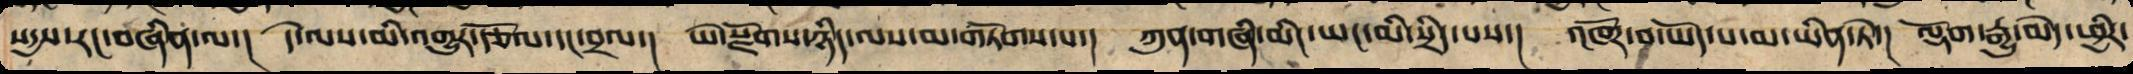སདྱས་རང་བཞིན་ལ་། དེ་ལས་མི་འགྱུར་རྩོལ་དང་བྲལ་། ཡེ་སྫོགས་ཉིད་ལས་མ་གཏོགས་པ་། ཀུན་གཞི་མིང་ཡང་མི་སྲིད་པས་། འཁོར་བ་ཡོད་པ་མ་ཡིན་ཏེ་། ལྡོག་རྒྱུ་མེད་ཕྱིར་
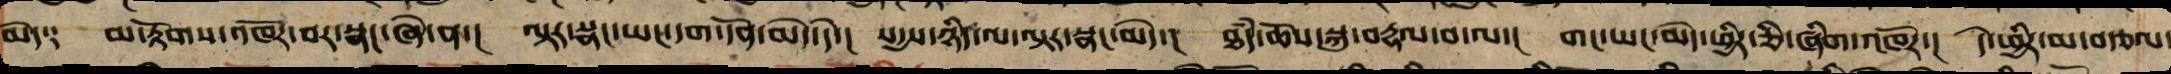མེད༑ མ་རྟོགས་འཁོར་བར་སྣང་ཞེ་ན་། ལྟར་སྣང་ཡང་དག་དོན་མེད་དེ་། སདྱས་ཉིད་ལ་ལྟར་སྣང་མེད་། ཐཾད་ཆོས་སྐུ་བརྡལ་བ་ལ་། གང་ཡང་མེད་ཕྱིར་ཅི་ཞིག་འཁོར་། དེ་ཕྱིར་མ་བརྩལ་
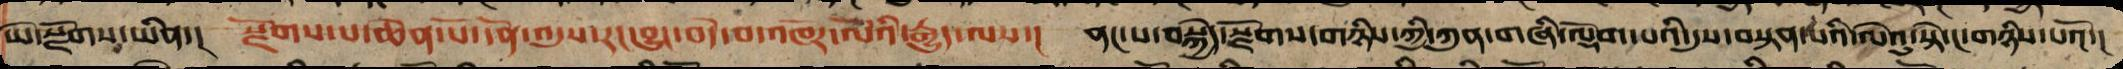ཡེ་སྫོགས་ཡིན་། སྫོགས་པ་ཆེན་པོ་དོན་འདུས་རང་བྱུང་བདེ་བའི་འཁོར་ལོའི་རྒྱུད་ལས་། ནང་པ་བསྐྱེད་སྫོགས་གཉིས་ཀྱི་ཀུན་གཞི་ལྡོག་པའི་དུས་བསྟན་པའི་ལེའུ་སྟེ་ང་གཉིས་པའོ་།།
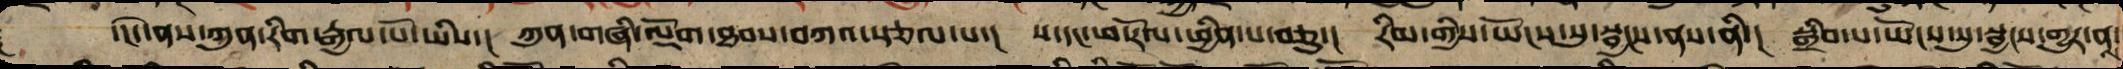་།།དེ་ནས་ཀུན་རིག་རྒྱལ་པོ་ཡིས་། ཀུན་གཞི་ལྡོག་ཐབས་བཀའ་སྩལ་པ་། ས་དང་ཕ་རོལ་ཕྱིན་པ་བཅུ་། རིམ་གྱིས་ཡོངས་སུ་སྦྱངས་ནས་ནི་། སྒྲིབ་པ་ཡོངས་སུ་བྱང་གྱུར་ནས་
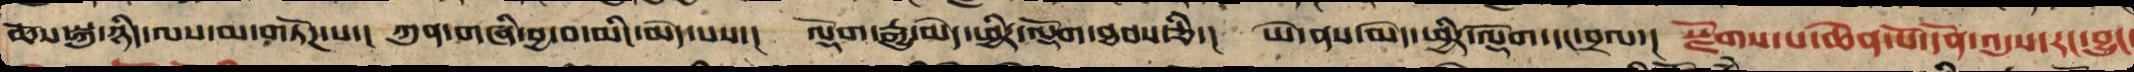ཆོས་སྐུ་ཉིད་ལས་མ་གཏོཌ་པ་། ཀུན་གཞི་བྱ་བ་མིང་མེད་པས་། ལྡོག་རྒྱུ་མེད་ཕྱིར་ལྡོག་ཐབས་ཅི་། ཡེ་ནས་མེད་ཕྱིར་ལྡོག་དང་བྲལ་། སྫོགས་པ་ཆེན་པོ་དོན་འདུས་རང་བྱུང་
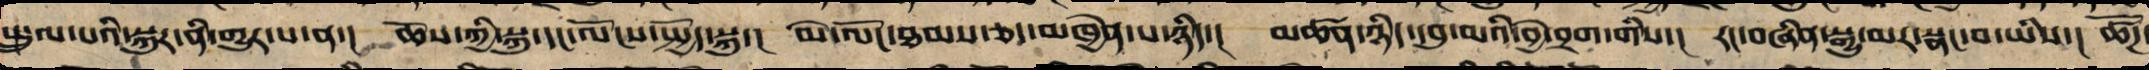སྤྲུལ་པའི་སྐུར་ནི་གྱུར་པ་ན་། ཆོས་ཀྱི་སྐུ་དང་ལོངས་སྤྱོད་སྐུ་། མེ་ལོང་ཐམས་ཅད་མཁྱེན་པ་ཉིད་། མཚན་ཉིད་དབུ་མའི་བྱེ་བྲག་གིས་། རང་བཞིན་སྒྱུ་མར་སྣང་བ་ཡི་། ཚོཌ་
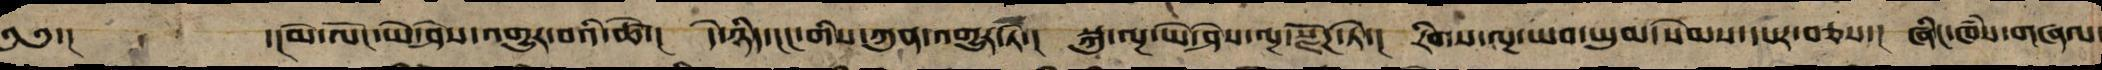༄༅་། ་།མེ་ལོང་ཡེ་ཤེས་འགྱུར་པའི་ཚེ་། དེ་ཉིད་ངང་གིས་ཀུན་འགྱུར་ཏེ་། སྐུ་ལྔ་ཡེ་ཤེས་ལྔ་སྫོཌ་ཏེ་། རིགས་ལྔ་ཡབ་ཡུམ་སེམས་དཔར་བཅས་། ཞིང་ཁཾས་གཞལ་
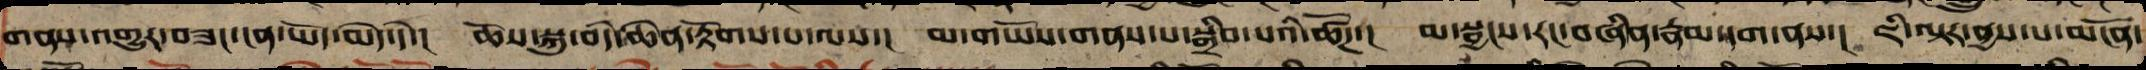གནས་འགྱུར་བཟང་ངན་ཡོངས་མེད་དེ་། ཆོས་སྐུ་བདེ་ཆེན་རྟོགས་པ་ལས་། མ་གཡོས་གནས་པས་སྒྲིབ་པའི་ཚོད་། མ་སྦྱངས་རང་བཞིན་རྣམ་དག་ནས་། ཇི་ལྟར་ནྱས་པ་མངོན་
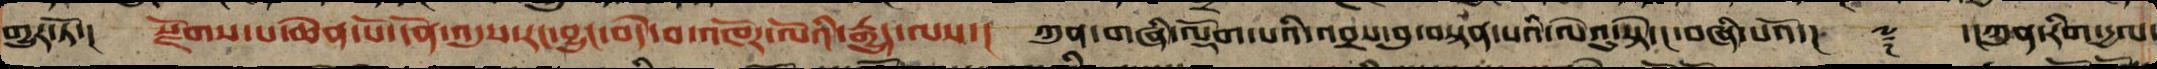གྱུར་ཏོ་། སྫོགས་པ་ཆེན་པོ་དོན་འདུས་རང་བྱུང་བདེ་བའི་འཁོར་ལོའི་རྒྱུད་ལས་། ཀུན་གཞི་ལྡོག་པའི་འབྲས་བུ་བསྟན་པའི་ལེའུ་སྟེ་ང་བཞི་པའོ་།། ༈ ་།།ཀུན་རིག་དྱལ་
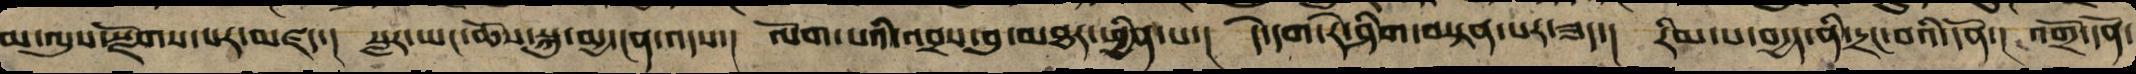མ་ལུས་སྫོགས་པར་མཛད་། སླར་ཡང་ཆོས་སྐུར་མྱ་ངན་འདས་། ལོག་པའི་འབྲས་བུ་མཐར་ཕྱིན་པ་། དེ་དག་རེ་ཞིག་བསྟན་པར་ཟད་། རིམ་པ་བདྱད་ནི་དྲང་བའི་དོན་། འགྲོ་དོན་
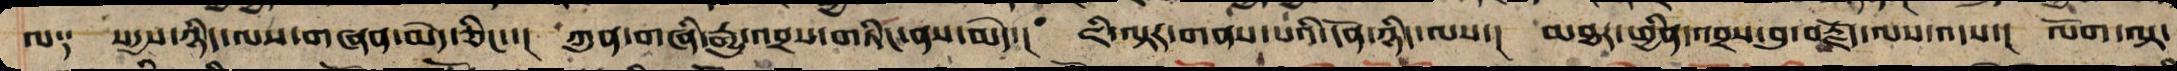ལ༑ སདྱས་ཉིད་ལས་གཞན་མེད་ཅིང་་། ཀུན་གཞི་རྒྱུ་འབྲས་གཏིང་ནས་མེད་། ཇི་ལྟར་གནས་པའི་དོན་ཉིད་ལས་། མཐར་ཕྱིན་འབྲས་བུ་བརྗོད་ལས་འདས་། ལོག་ལྟ་
